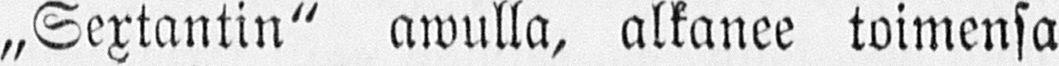„Sextantin" awulla, alkanee toimensa
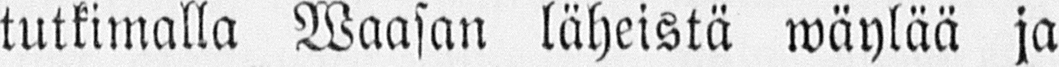tutkimalla Waasan läheistä wäylää ja
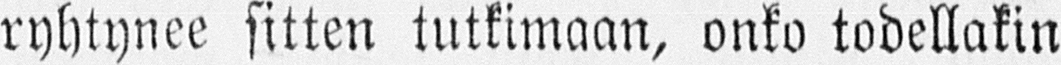ryhtynee sitten tutkimaan, onko todellakin
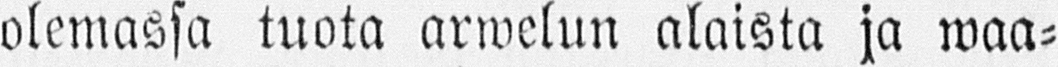olemassa tuota arwelun alaista ja waa-
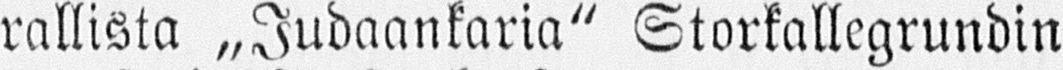rallista „Judaankaria" Storkallegrundin
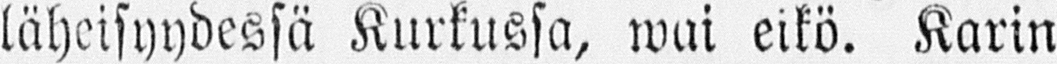läheisyydessä Kurkussa, wai eikö. Karin
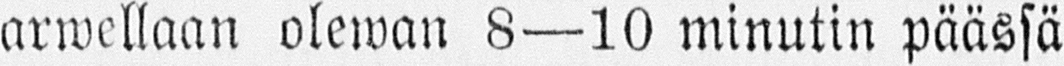arwellaan olewan 8 —10 minutin päässä
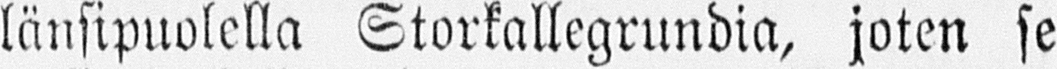länsipuolella Storkallegrundia, joten se
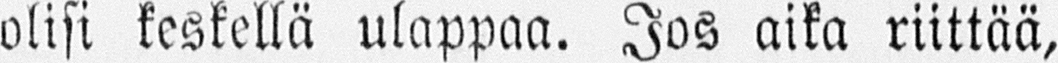olisi keskeltä ulappaa. Jos aika riittää,
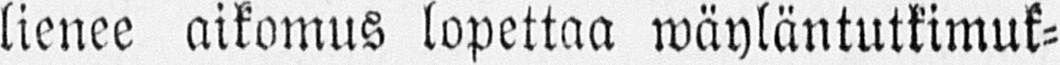lienee aikomus lopettaa wäyläntutkimuk-
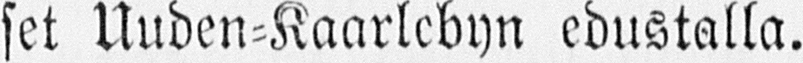set Uuden-Kaarlebyn edustalla.
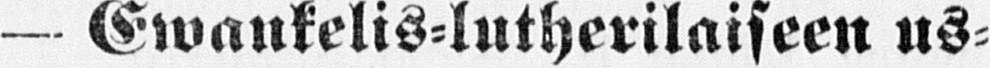— Ewankelis-lutherilaiseen us-
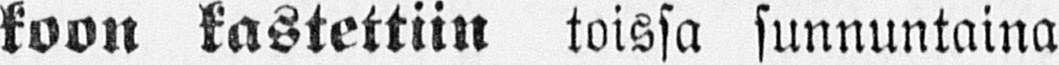koon kastettiin toissa sunnuntaina
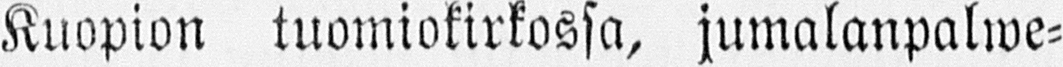Kuopion tuomiokirkossa, jumalanpalwe-
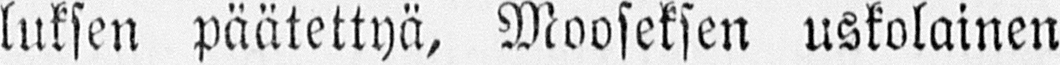luksen päätettyä, Mooseksen uskolainen
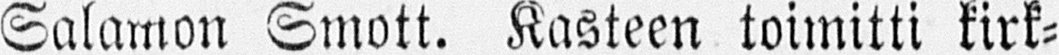Salamon Smott. Kasteen toimitti kirk-
